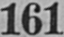161
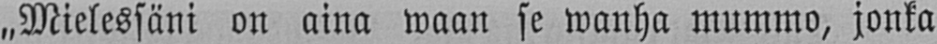„Mielessäni on aina waan se wanha mummo, jonka
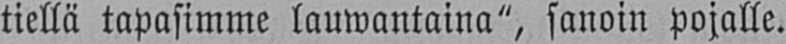tiellä tapasimme lauwantaina", sanoin pojalle.
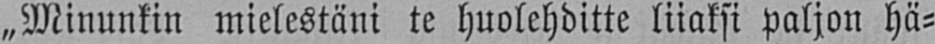„Minunkin mielestäni te huolehditte liiaksi paljon hä-
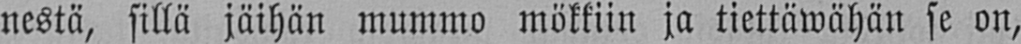nestä, sillä jäihän mummo mökkiin ja tiettäwähän se on,
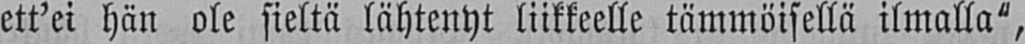ett'ei hän ole sieltä lähtenyt liikkeelle tämmöisellä ilmalla",
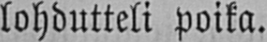lohdutteli poika.
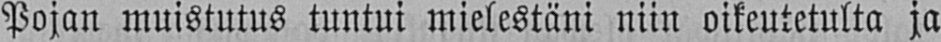Pojan muistutus tuntui mielestäni niin oikeutetulta ja
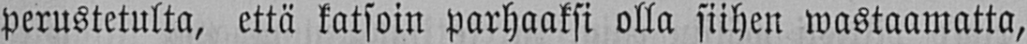perustetulta, että katsoin parhaaksi olla siihen wastaamatta,
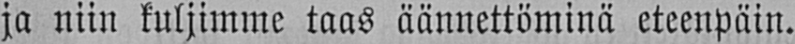ja niin kuljimme taas äännettöminä eteenpäin.
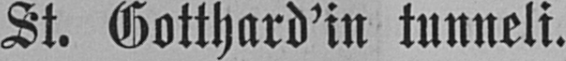St. Gotthard'in tunneli.
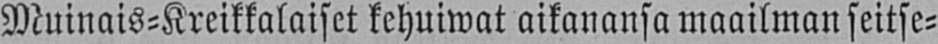Muinais-Kreikkalaiset kehuiwat aikanansa maailman seitse-
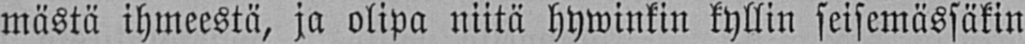mästä ihmeestä, ja olipa niitä hywinkin kyllin seisemässäkin
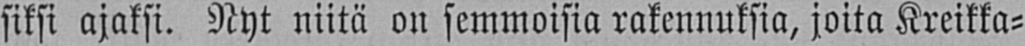siksi ajaksi. Nyt niitä on semmoisia rakennuksia, joita Kreikka-
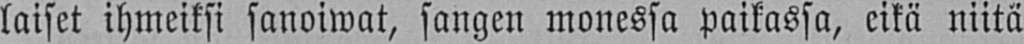laiset ihmeiksi sanoiwat, sangen monessa paikassa, eikä niitä
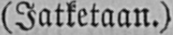(Jatketaan.)
